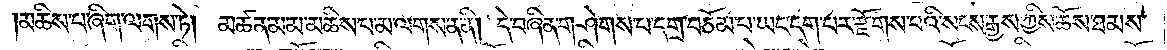མཆིས་པ་ཞིག་ལགས་ཏེ། མཚན་མ་མ་མཆིས་པ་མ་ལགས་ན་ནི། དེ་བཞིན་གཤེགས་པ་དགྲ་བཅོམ་པ་ཡང་དག་པར་རྫོགས་པའི་སངས་རྒྱས་ཀྱིས་ཆོས་ཐམས་
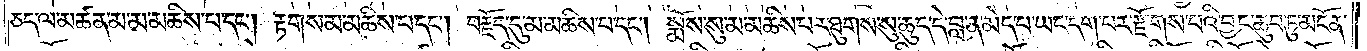ཅད་ལ་མཚན་མ་མ་མཆིས་པ་དང༌། རྟགས་མ་མཆིས་པ་དང༌། བརྗོད་དུ་མ་མཆིས་པ་དང༌། སྨོས་སུ་མ་མཆིས་པར་ཐུགས་སུ་ཆུད་དེ་བླ་ན་མེད་པ་ཡང་དག་པར་རྫོགས་པའི་བྱང་ཆུབ་ཏུ་མངོན་
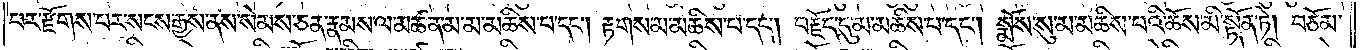པར་རྫོགས་པར་སངས་རྒྱས་ནས་སེམས་ཅན་རྣམས་ལ་མཚན་མ་མ་མཆིས་པ་དང༌། རྟགས་མ་མཆིས་པ་དང༌། བརྗོད་དུ་མ་མཆིས་པ་དང༌། སྨོས་སུ་མ་མཆིས་པའི་ཆོས་མི་སྟོན་ཏེ། བཅོམ་
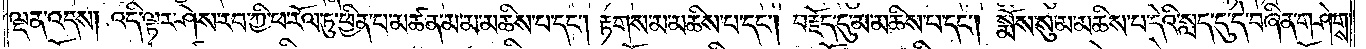ལྡན་འདས། འདི་ལྟར་ཤེས་རབ་ཀྱི་ཕ་རོལ་ཏུ་ཕྱིན་པ་མཚན་མ་མ་མཆིས་པ་དང༌། རྟགས་མ་མཆིས་པ་དང༌། བརྗོད་དུ་མ་མཆིས་པ་དང༌། སྨོས་སུ་མ་མཆིས་པ་དེའི་སླད་དུ་དེ་བཞིན་གཤེགས་
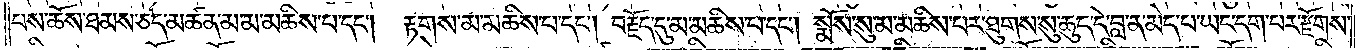པས་ཆོས་ཐམས་ཅད་མཚན་མ་མ་མཆིས་པ་དང༌། རྟགས་མ་མཆིས་པ་དང༌། བརྗོད་དུ་མ་མཆིས་པ་དང༌། སྨོས་སུ་མ་མཆིས་པར་ཐུགས་སུ་ཆུད་དེ་བླ་ན་མེད་པ་ཡང་དག་པར་རྫོགས་
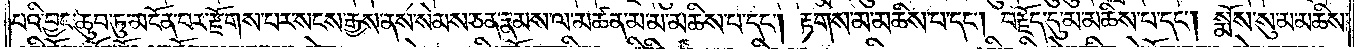པའི་བྱང་ཆུབ་ཏུ་མངོན་པར་རྫོགས་པར་སངས་རྒྱས་ནས་སེམས་ཅན་རྣམས་ལ་མཚན་མ་མ་མཆིས་པ་དང༌། རྟགས་མ་མཆིས་པ་དང༌། བརྗོད་དུ་མ་མཆིས་པ་དང༌། སྨོས་སུ་མ་མཆིས་
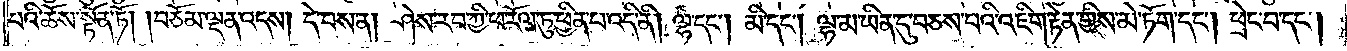པའི་ཆོས་སྟོན་ཏོ། །བཅོམ་ལྡན་འདས། དེ་བས་ན། ཤེས་རབ་ཀྱི་ཕ་རོལ་ཏུ་ཕྱིན་པ་འདི་ནི། ལྷ་དང༌། མི་དང༌། ལྷ་མ་ཡིན་དུ་བཅས་པའི་འཇིག་རྟེན་གྱིས་མེ་ཏོག་དང༌། ཕྲེང་བ་དང༌།
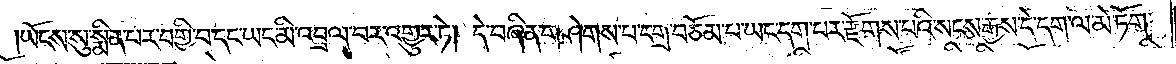ཡོངས་སུ་སྨིན་པར་བགྱི་བ་དང་ཡང་མི་འབྲལ་བར་འགྱུར་ཏེ། དེ་བཞིན་གཤེགས་པ་དགྲ་བཅོམ་པ་ཡང་དག་པར་རྫོགས་པའི་སངས་རྒྱས་དེ་དག་ལ་མེ་ཏོག་
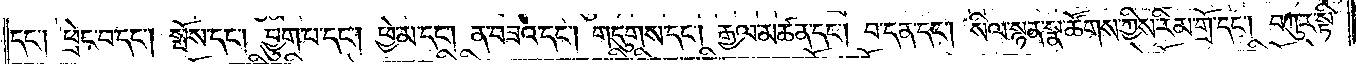དང༌། ཕྲེང་བ་དང༌། སྤོས་དང༌། བྱུག་པ་དང༌། ཕྱེ་མ་དང༌། ན་བཟའ་དང༌། གདུགས་དང༌། རྒྱལ་མཚན་དང༌། བ་དན་དང༌། སིལ་སྙན་སྣ་ཚོགས་ཀྱིས་རིམ་གྲོ་དང༌། བཀུར་སྟི་
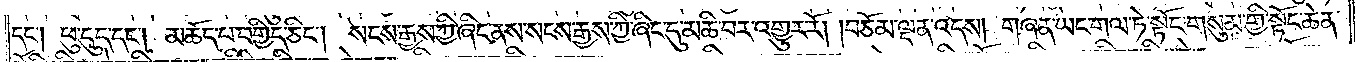དང༌། ཕུ་དུད་དང༌། མཆོད་པ་བགྱིད་ཅིང༌། སངས་རྒྱས་ཀྱི་ཞིང་ནས་སངས་རྒྱས་ཀྱི་ཞིང་དུ་མཆི་བར་འགྱུར་རོ། །བཅོམ་ལྡན་འདས། གཞན་ཡང་གལ་ཏེ་སྟོང་གསུམ་གྱི་སྟོང་ཆེན་
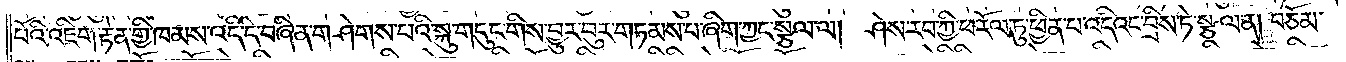པོའི་འཇིག་རྟེན་གྱི་ཁམས་འདི་དེ་བཞིན་གཤེགས་པའི་སྐུ་གདུང་གིས་བྱུར་བུར་གཏམས་པ་ཞིག་ཀྱང་སྩལ་ལ། ཤེས་རབ་ཀྱི་ཕ་རོལ་ཏུ་ཕྱིན་པ་འདིའང་བྲིས་ཏེ་སྩལ་ན། བཅོམ་
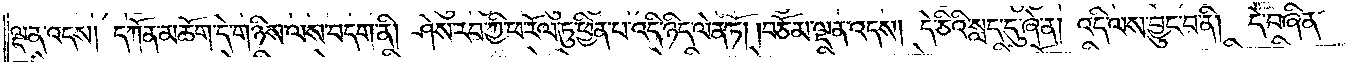ལྡན་འདས། དཀོན་མཆོག་དེ་གཉིས་ལས་བདག་ནི། ཤེས་རབ་ཀྱི་ཕ་རོལ་ཏུ་ཕྱིན་པ་འདི་ཉིད་ལེན་ཏོ། །བཅོམ་ལྡན་འདས། དེ་ཅིའི་སླད་དུ་ཞེ་ན། འདི་ལས་བྱུང་བ་ནི། དེ་བཞིན་
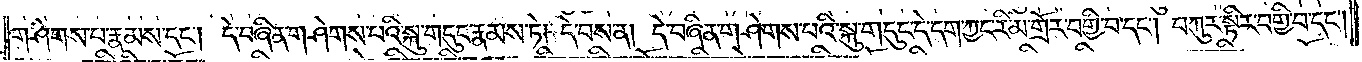གཤེགས་པ་རྣམས་དང༌། དེ་བཞིན་གཤེགས་པའི་སྐུ་གདུང་རྣམས་ཏེ། དེ་བས་ན། དེ་བཞིན་གཤེགས་པའི་སྐུ་གདུང་དེ་དག་ཀྱང་རིམ་གྲོར་བགྱི་བ་དང༌། བཀུར་སྟིར་བགྱི་བ་དང༌།
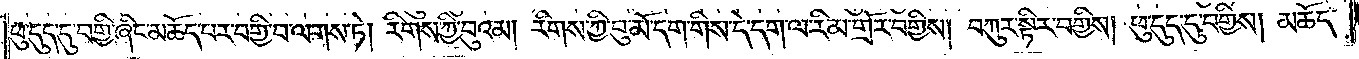ཕུ་དུད་དུ་བགྱི་ཞིང་མཆོད་པར་བགྱི་བ་ལགས་ཏེ། རིགས་ཀྱི་བུའམ། རིགས་ཀྱི་བུ་མོ་དག་གིས་དེ་དག་ལ་རིམ་གྲོར་བགྱིས། བཀུར་སྟིར་བགྱིས། ཕུ་དུད་དུ་བགྱིས། མཆོད་
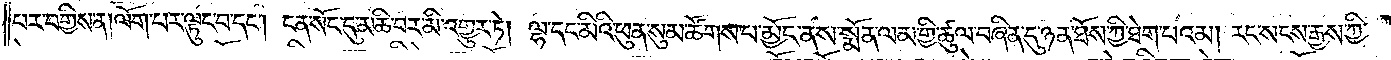པར་བགྱིས་ན་ལོག་པར་ལྟུང་བ་དང༌། ངན་སོང་དུ་མཆི་བར་མི་འགྱུར་ཏེ། ལྷ་དང་མིའི་ཕུན་སུམ་ཚོགས་པ་མྱོང་ནས་སྨོན་ལམ་གྱི་ཚུལ་བཞིན་དུ་ཉན་ཐོས་ཀྱི་ཐེག་པའམ། རང་སངས་རྒྱས་ཀྱི་
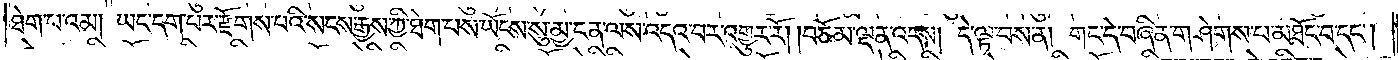ཐེག་པའམ། ཡང་དག་པར་རྫོགས་པའི་སངས་རྒྱས་ཀྱི་ཐེག་པས་ཡོངས་སུ་མྱ་ངན་ལས་འདའ་བར་འགྱུར་རོ། །བཅོམ་ལྡན་འདས། དེ་ལྟ་བས་ན། གང་དེ་བཞིན་གཤེགས་པ་མཐོང་བ་དང༌།
